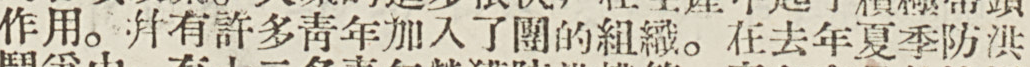作用。並有許多靑年加入了團的組織。在去年夏季防洪
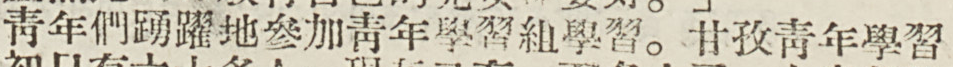靑年們踊躍地參加靑年學習組學習。甘孜靑年學習
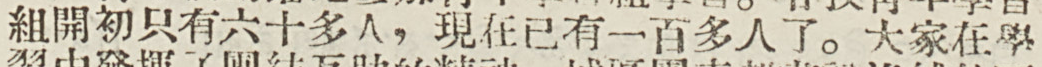組開初只有六十多人，現在已有一百多人了。大家在學
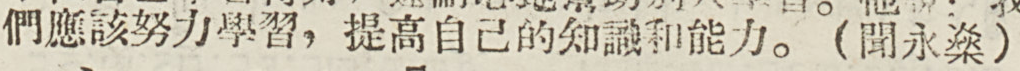們應該努力學習，提高自己的知識和能力。（聞永燊）
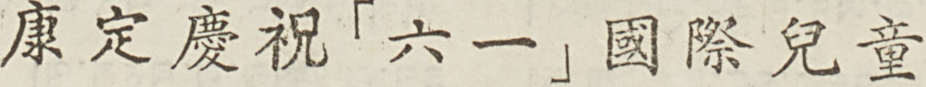康定慶祝「六一」國際兒童
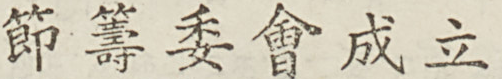節籌委會成立
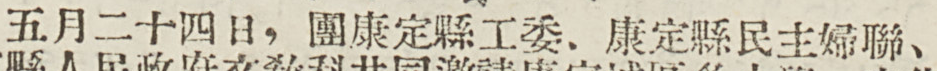五月二十四日，團康定縣工委、康定縣民主婦聯、
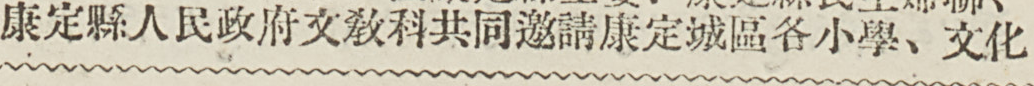康定縣人民政府文敎科共同邀請康定城區各小學、文化
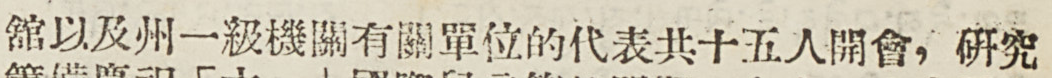館以及州一級機關有關單位的代表共十五人開會，研究
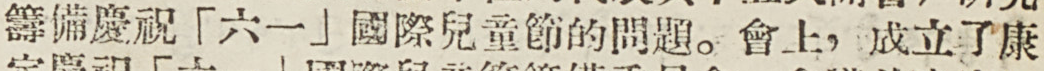抽被慶祝「六一」國際兒童節的問題。會上，成立了康
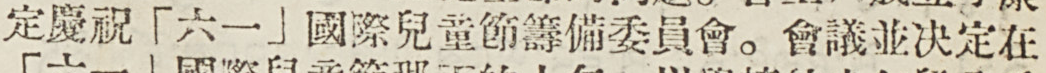定慶祝「六一」國際兒童節籌備委員會。會議並決定在
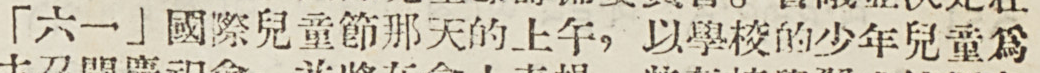「六一」國際兒童節那天的上午，以學校的少年兒童爲
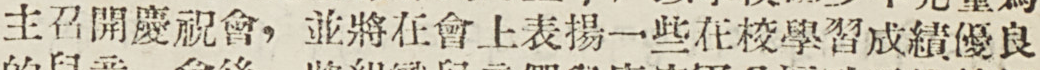主召開慶祝會，並將在會上表揚一些在校學習成績優良
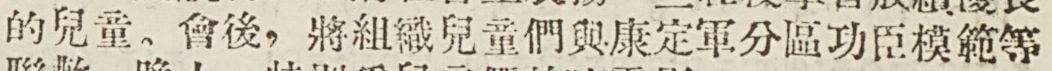的兒童。會後，將組織兒童們與康定軍分區功臣模範等
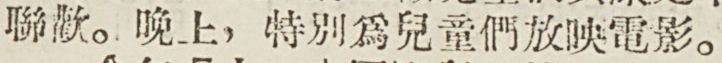聯歡。晚上，特別爲兒童們放映電影。
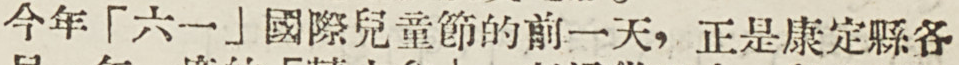今年「六一」國際兒童節的前一天，正式康定縣各
